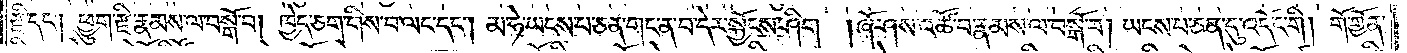རྫི་དང༌། ཕྱུག་རྫི་རྣམས་ལ་བསྒོ་བ། ཁྱེད་ཅག་གིས་བ་ལང་དང༌། མ་ཧེ་ཡངས་པ་ཅན་གང་ན་བ་དེར་སྐྱོངས་ཤིག །ཞོ་ཤས་འཚོ་བ་རྣམས་ལ་བསྒོ་བ། ཡངས་པ་ཅན་དུ་འདོང་གི །གོ་གྱོན་
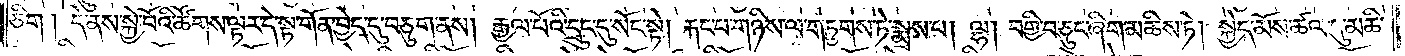ཅིག །དེ་ནས་སྐྱེ་བོའི་ཚོགས་ལྟར་དེ་སྟ་གོན་བྱེད་དུ་བཅུག་ནས། རྒྱལ་པོའི་དྲུང་དུ་སོང་སྟེ། རྐང་པ་གཉིས་ལ་གཏུགས་ཏེ་སྨྲས་པ། ལྷ། བགྱི་བ་ཅུང་ཞིག་མཆིས་ཏེ། སྐྱེད་མོས་ཚལ་དུ་མཆི་
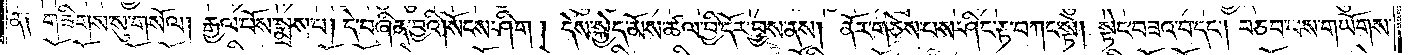ན༑ གཟིགས་སུ་གསོལ། རྒྱལ་པོས་སྨྲས་པ། དེ་བཞིན་བྱའི།སོངས་ཤིག །དེས་སྐྱེད་མོས་ཚལ་བྱི་དོར་བྱས་ནས། ནོར་གཅེས་པས་ཤིང་རྟ་བཀང་སྟེ། སྟེང་བཟའ་བ་དང༌། བཅབ་པས་གཡོགས་
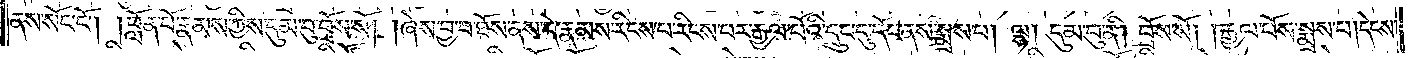ནས་སོང་ངོ༌། །བློན་པོ་རྣམས་ཀྱིས་དུམ་བུ་བྲོས་སོ། །ཞེས་བྱ་བ་ཐོས་ནས་དེ་རྣམས་རིངས་པ་རིངས་པར་རྒྱལ་པོའི་དྲུང་དུ་དོང་ནས་སྨྲས་པ། ལྷ། དུམ་བུ་ནི། བྲོས་སོ། །རྒྱལ་པོས་སྨྲས་པ། དེངས་
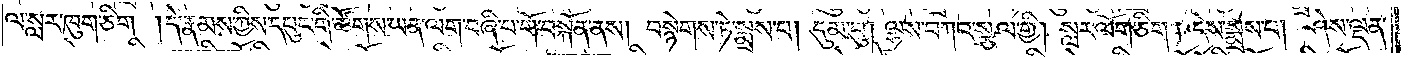ལ་སླར་ཁུག་ཅིག །དེ་རྣམས་ཀྱིས་དཔུང་གི་ཚོགས་ཡན་ལག་བཞི་པ་གོ་བསྐོན་ནས། །བསྙེགས་ཏེ་སྨྲས་པ། དུམ་བུ། ལྷས་བཀའ་སྩལ་གྱི། སླར་ལོག་ཅིག །དེས་སྨྲས་པ། ཤེས་ལྡན་
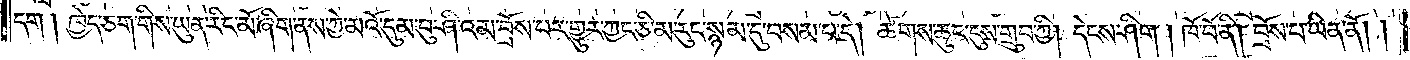དག །ཁྱེད་ཅག་གིས་ཡུན་རིང་མོ་ཞིག་ནས་ཀྱེ་མའོ་དུམ་བུ་ཤི་འམ་བྲོས་པར་གྱུར་ཀྱང་ཅི་མ་རུང་སྙམ་དུ་བསམ་པ་དེ། ཚེགས་ཆུང་དུས་གྲུབ་ཀྱི། དེངས་ཤིག །ཁོ་བོ་ནི། བྲོས་པ་ཡིན་ནོ། །
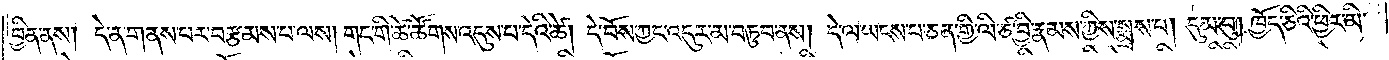བྱིན་ནས། དེ་ན་གནས་པར་བརྩམས་པ་ལས། གང་གི་ཚེ་ཚོགས་འདུས་པ་དེའི་ཚེ། དེ་བོས་ཀྱང་འདུར་མ་བཏུབ་ནས། དེ་ལ་ཡངས་པ་ཅན་གྱི་ལི་ཙ་བྱི་རྣམས་ཀྱིས་སྨྲས་པ། དུམ་བུ། ཁྱོད་ཅིའི་ཕྱིར་མི་
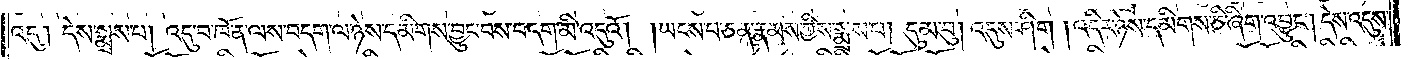འདུ། དེས་སྨྲས་པ། འདུ་བ་ཁོ་ན་ལས་བདག་ལ་ཉེས་དམིགས་བྱུང་བས་བདག་མི་འདུའོ། །ཡངས་པ་ཅན་རྣམས་ཀྱིས་སྨྲས་པ། དུམ་བུ། འདུས་ཤིག །འདིར་ཉེས་དམིགས་ཅི་ཞིག་འབྱུང༌། དེས་འདུས་
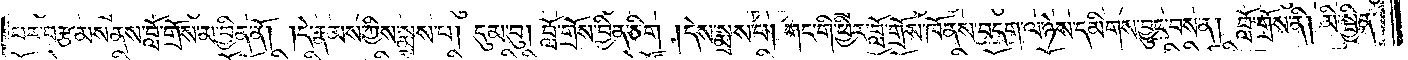པར་བརྩམས་ནས་བློ་གྲོས་མ་བྱིན་ནོ། །དེ་རྣམས་ཀྱིས་སྨྲས་པ། དུམ་བུ། བློ་གྲོས་བྱིན་ཅིག །དེས་སྨྲས་པ། གང་གི་ཕྱིར་བློ་གྲོས་ཁོ་ནས་བདག་ལ་ཉེས་དམིགས་བྱུང་བས་ན། བློ་གྲོས་ནི། མི་སྦྱིན་
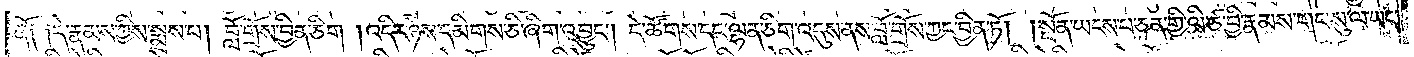ནོ། །དེ་རྣམས་ཀྱིས་སྨྲས་པ། བློ་གྲོས་བྱིན་ཅིག །འདིར་ཉེས་དམིགས་ཅི་ཞིག་འབྱུང༌། དེ་ཚོགས་དང་ལྷན་ཅིག་འདུས་ནས་བློ་གྲོས་ཀྱང་བྱིན་ཏོ། །སྔོན་ཡངས་པ་ཅན་གྱི་ལི་ཙ་བྱི་རྣམས་གང་སུ་ལ་ཡང་
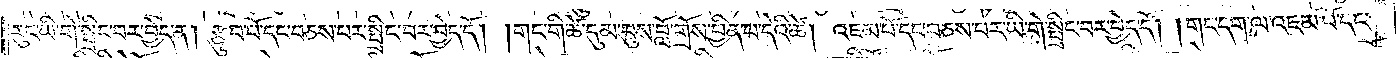རུང་ཡི་གེ་སྤྲིང་བར་བྱེད་ན། རྩུབ་པོ་དང་བཅས་པར་སྤྲིང་བར་བྱེད་དོ། །གང་གི་ཚེ་དུམ་བུས་བློ་གྲོས་བྱིན་པ་དེའི་ཚེ། འཇམ་པོ་དང་བཅས་པར་ཡི་གེ་སྤྲིང་བར་བྱེད་དོ། །གང་དག་ལ་འཇམ་པོ་དང་
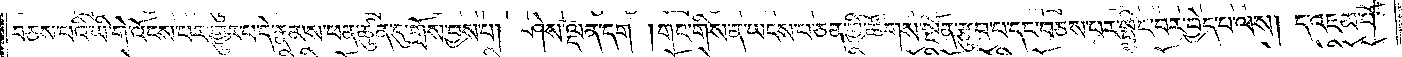བཅས་པའི་ཡི་གེ་འོངས་པར་གྱུར་པ་དེ་རྣམས་ཕན་ཚུན་དུ་གྲོས་བྱས་པ། ཤེས་ལྡན་དག །གང་གིས་ན་ཡངས་པ་ཅན་གྱི་ཚོགས་སྔོན་རྩུབ་པ་དང་བཅས་པར་སྤྲིང་བར་བྱེད་པ་ལས། ད་འཇམ་པོ་
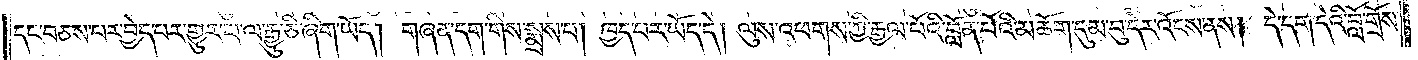དང་བཅས་པར་བྱེད་པར་གྱུར་པ་ལ་རྒྱུ་ཅི་ཞིག་ཡོད། །གཞན་དག་གིས་སྨྲས་པ། ཁྱད་པར་ཡོད་དེ། ལུས་འཕགས་ཀྱི་རྒྱལ་པོའི་བློན་པོའི་མཆོག་དུམ་བུ་དེར་འོངས་ནས། དེ་དག་དེའི་བློ་གྲོས་
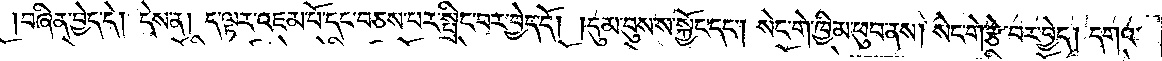།བཞིན་བྱེད་དེ། དེས་ན། ད་ལྟར་འཇམ་པོ་དང་བཅས་པར་སྤྲིང་བར་བྱེད་དོ། །དུམ་བུས་ས་སྐྱོང་དང༌། སེང་གེ་ཁྱིམ་ཕུབ་ནས། སེང་གེ་རྩེ་བར་བྱེད། དགའ་
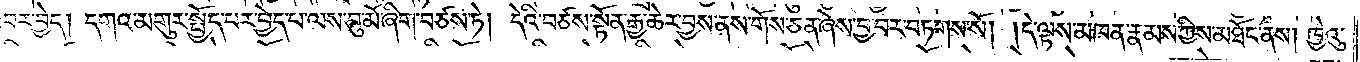བར་བྱེད། དགའ་མགུར་སྤྱོད་པར་བྱེད་པ་ལས་བུ་མོ་ཞིག་བཙས་ཏེ། དེའི་བཙས་སྟོན་རྒྱ་ཆེར་བྱས་ནས་གོས་ཅན་ཞེས་བྱ་བར་བཏགས་སོ། །དེ་ལྟས་མཁན་རྣམས་ཀྱིས་མཐོང་ནས། ཁྱེའུ་
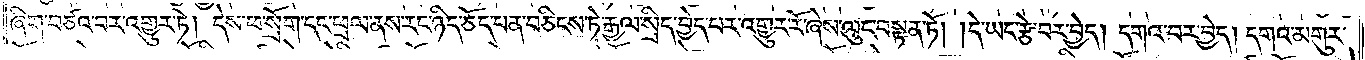ཞིག་བཙའ་བར་འགྱུར་ཏེ། དེས་ཕ་སྲོག་དང་ཕྲལ་ནས་རང་ཉིད་ཅོད་པན་བཅིངས་ཏེ་རྒྱལ་སྲིད་བྱེད་པར་འགྱུར་རོ་ཞེས་ལུང་བསྟན་ཏོ། །དེ་ཡང་རྩེ་བར་བྱེད། དགའ་བར་བྱེད། དགའ་མགུར་
